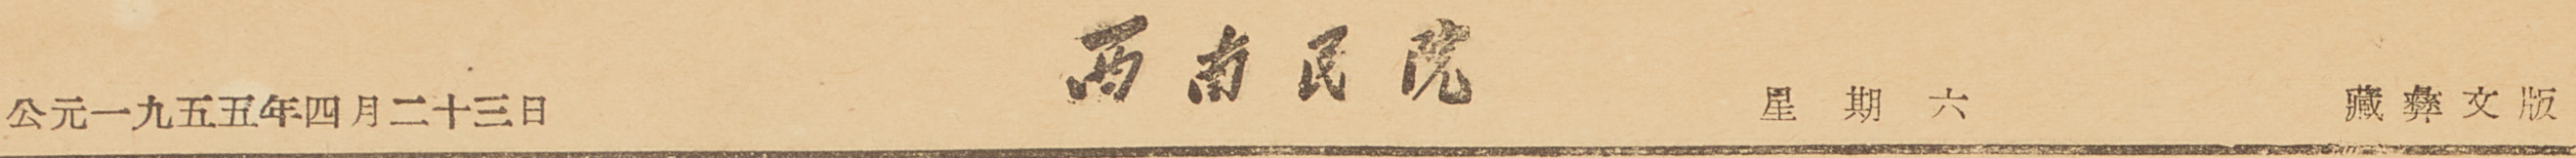公元一九五五年四月二十三日 西南民院 星期六 藏彝文版
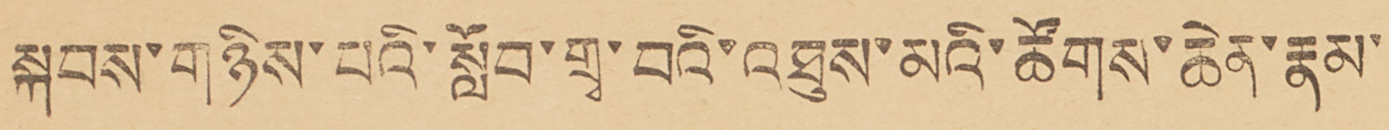སྐབས་གཉིས་པའི་སློབ་གྲྭ་བའི་འཐུས་མའི་ཚོགས་ཆེན་རྣམ་
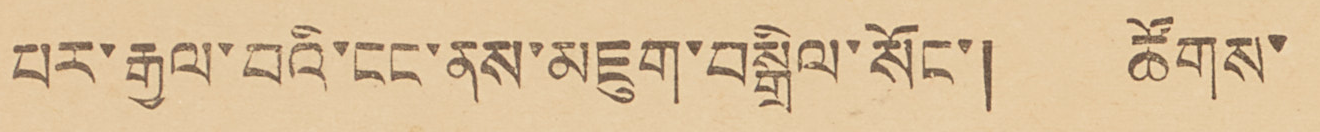པར་རྒྱལ་བའི་ངང་ནས་མཇུག་བསྒྲིལ་སོང་། ཚོགས་
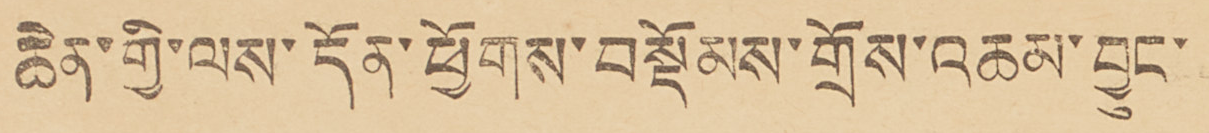ཆེན་གྱི་ལས་དོན་ཕྱོགས་བསྡོམས་གྲོས་འཆམ་བྱུང་
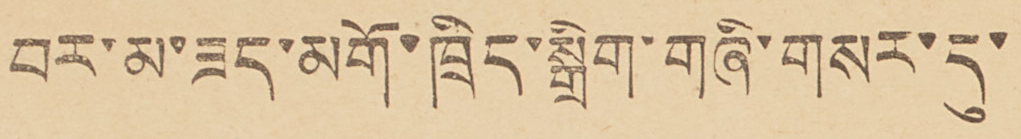བར་མ་ཟད་མགོ་ཁྲིད་སྒྲིག་གཞི་གསར་དུ་
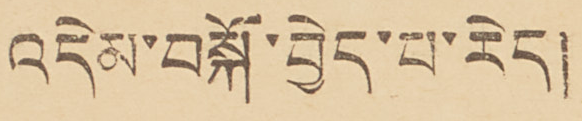འདེམ་བསྐོ་བྱེད་པ་རེད།
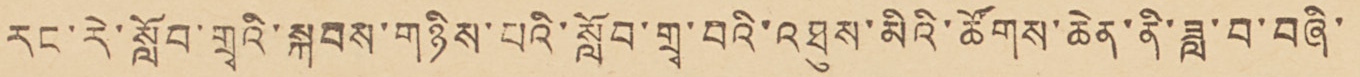རང་རེ་སློབ་གྲྭའི་སྐབས་གཉིས་པའི་སློབ་གྲྭ་བའི་འཐུས་མིའི་ཚོགས་ཆེན་ནི་ཟླ་བ་བཞི་
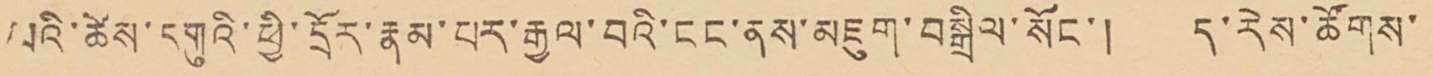པའི་ཚེས་དགུའི་ཕྱི་དྲོར་རྣམ་པར་རྒྱལ་བའི་ངང་ནས་མཇུག་བསྒྲིལ་སོང་། ད་རེས་ཚོགས་
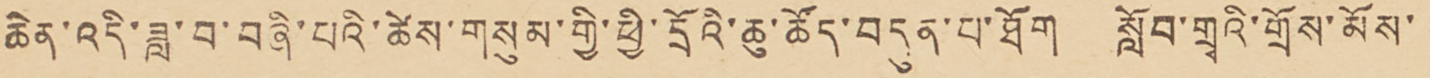ཆེན་འདི་ཟླ་བ་བཞི་པའི་ཚེས་གསུམ་གྱི་ཕྱི་དྲོའི་ཆུ་ཚོད་བདུན་པ་ཐོག སློབ་གྲྭའི་གྲོས་མོས་
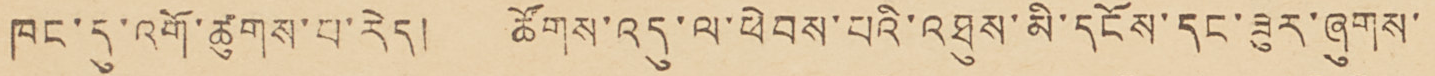ཁང་དུ་འགོ་ཚུགས་པ་རེད། ཚོགས་འདུ་ལ་ཕེབས་པའི་འཐུས་མི་དངོས་དང་ཟུར་ཞུགས་
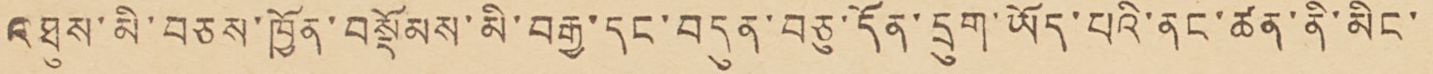འཐུས་མི་བཅས་ཁྱོན་བསྡོམས་མི་བརྒྱ་དང་བདུན་བཅུ་དོན་དྲུག་ཡོད་པའི་ནང་ཚན་ནི་མིང་
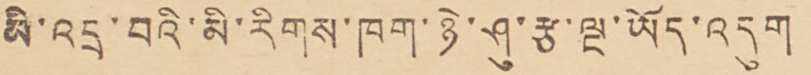མི་འདྲ་བའི་མི་རིགས་ཁག་ཉེ་ཤུ་རྩ་ལྔ་ཡོད་འདུག
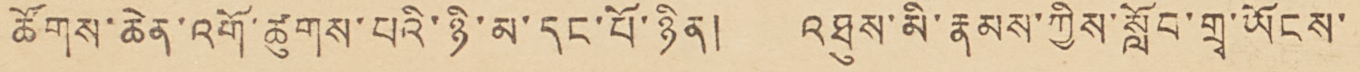ཚོགས་ཆེན་འགོ་ཚུགས་པའི་ཉི་མ་དང་པོ་ཉིན། འཐུས་མི་རྣམས་ཀྱིས་སློབ་གྲྭ་ཡོངས་
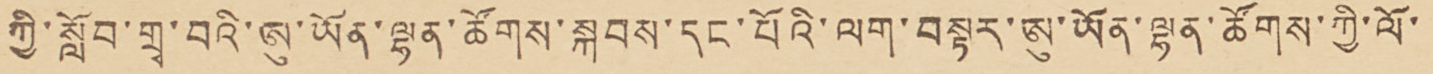ཀྱི་སློབ་གྲྭ་བའི་ཨུ་ཡོན་ལྷན་ཚོགས་སྐབས་དང་པོའི་ལག་བསྟར་ཨུ་ཡོན་ལྷན་ཚོགས་ཀྱི་ལོ་
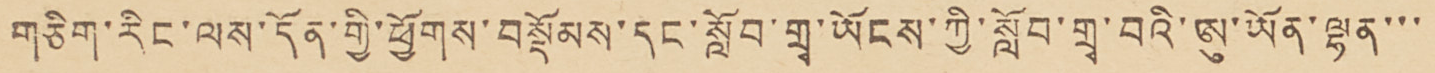གཅིག་རིང་ལས་དོན་གྱི་ཕྱོགས་བསྡོམས་དང་སློབ་གྲྭ་ཡོངས་ཀྱི་སློབ་གྲྭ་བའི་ཨུ་ཡོན་ལྷན་་་
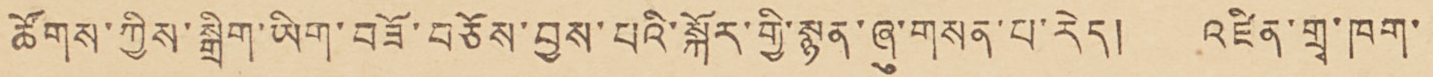ཚོགས་ཀྱིས་སྒྲིག་ཡིག་བཟོ་བཅོས་བྱས་པའི་སྐོར་གྱི་སྙན་ཞུ་གསན་པ་རེད། འཛིན་གྲྭ་ཁག་
